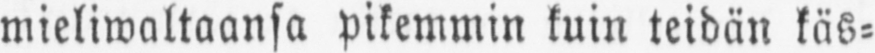mieliwaltaansa pikemmin kuin teidän käs-
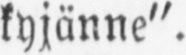kyjänne".
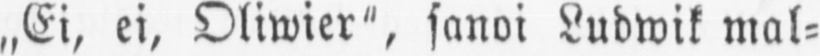„Ei, ei, Oliwier", sanoi Ludwik mal-
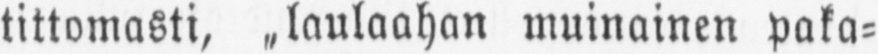tittomasti, paulaahan muinainen paka-
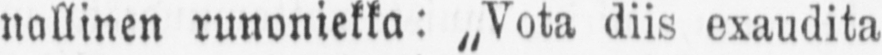nallinen runoniekka: „Vota diis exaudita
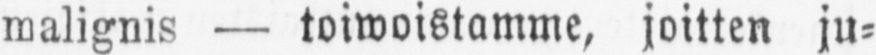malignis — toiwoistamme, joitten ju-
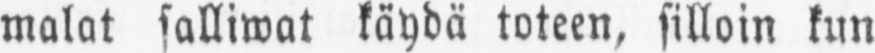malat salliwat käydä toteen, silloin kun
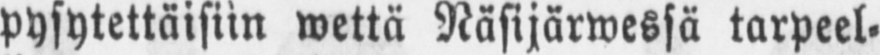pysytettäisiin wettä Näsijärwessä tarpeel-
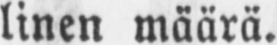linen määrä.
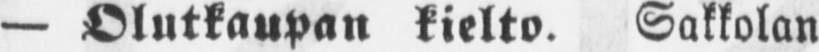— Olutkaupan kielto. Sakkolan
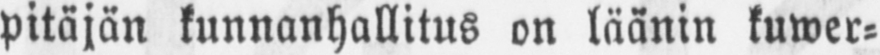pitäjän kunnanhallitus on läänin kuwer-
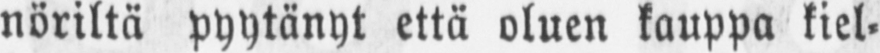nöriltä pyytänyt että oluen kauppa kiel-
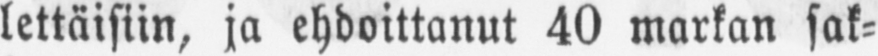lettäisiin, ja ehdoittanut 40 markan sak-
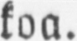koa.
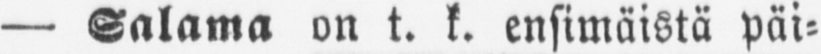— Salama on t. k. ensimäistä päi-
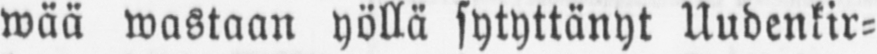wää wastaan yöllä sytyttänyt Uudenkir-
